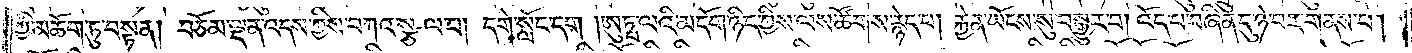ཀྱི་མཆོག་ཏུ་བསྟན། བཅོམ་ལྡན་འདས་ཀྱིས་བཀའ་སྩལ་པ། དགེ་སློང་དག །ཨུཏྤ་ལའི་མདོག་ཉིད་ཀྱིས་ལས་ཚོགས་རྙེད་པ། རྐྱེན་ཡོངས་སུ་བསྒྱུར་བ། འོད་པ་བཞིན་དུ་ཉེ་བར་གནས་པ།
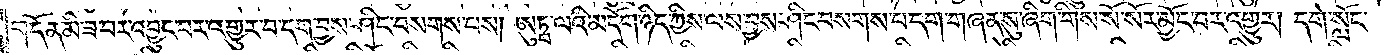གདོན་མི་ཟ་བར་འབྱུང་བར་འགྱུར་པ་དག་བྱས་ཤིང་བསགས་པས། ཨུཏྤ་ལའི་མདོག་ཉིད་ཀྱིས་ལས་བྱས་ཤིང་བསགས་པ་དག་གཞན་སུ་ཞིག་གིས་སོ་སོར་མྱོང་བར་འགྱུར། དགེ་སློང་
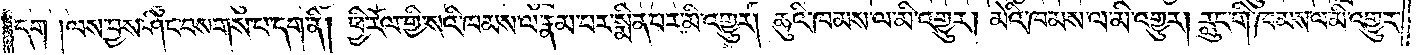དག །ལས་བྱས་ཤིང་བསགས་པ་དག་ནི། ཕྱི་རོལ་གྱི་སའི་ཁམས་ལ་རྣམ་པར་སྨིན་པ་མི་འགྱུར། ཆུའི་ཁམས་ལ་མི་འགྱུར། མེའི་ཁམས་ལ་མི་འགྱུར། རླུང་གི་ཁམས་ལ་མི་འགྱུར་
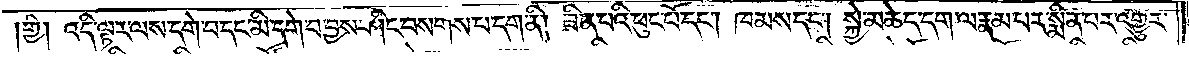གྱི། འདི་ལྟར་ལས་དགེ་བ་དང་མི་དགེ་བ་བྱས་ཤིང་བསགས་པ་དག་ནི། ཟིན་པའི་ཕུང་པོ་དང༌། ཁམས་དང༌། སྐྱེ་མཆེད་དག་ལ་རྣམ་པར་སྨིན་པར་འགྱུར་
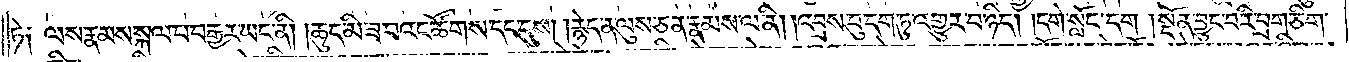ཏེ༑ ལས་རྣམས་སྐལ་པ་བརྒྱར་ཡང་ནི། །ཆུད་མི་ཟ་བའང་ཚོགས་དང་དུས། །རྙེད་ན་ལུས་ཅན་རྣམས་ལ་ནི། །འབྲས་བུ་དག་ཏུ་འགྱུར་བ་ཉིད། དགེ་སློང་དག །སྔོན་བྱུང་བ་རི་བྲག་ཅིག་
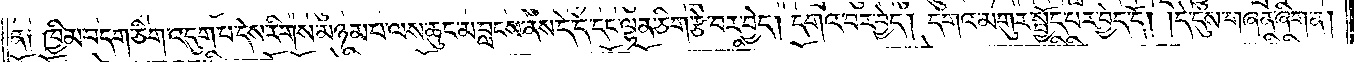ན༑ ཁྱིམ་བདག་ཅིག་འདུག་པ་དེས་རིགས་མཉམ་པ་ལས་ཆུང་མ་བླངས་ནས་དེ་དེ་དང་ལྷན་ཅིག་རྩེ་བར་བྱེད། དགའ་བར་བྱེད། དགའ་མགུར་སྤྱོད་པར་བྱེད་དོ། །དེ་དུས་གཞན་ཞིག་ན།
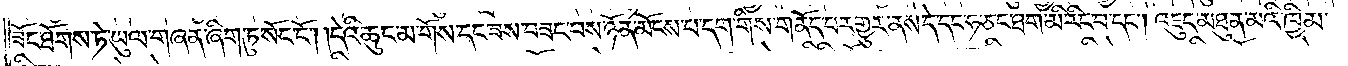ཟོང་ཐོགས་ཏེ་ཡུལ་གཞན་ཞིག་ཏུ་སོང་ངོ༌། །དེའི་ཆུང་མ་གོས་དང་ཟས་བཟང་བས་ཉོན་མོངས་པ་དག་གིས་གནོད་པར་གྱུར་ནས་དེ་དང་ཧ་ཅང་ཐག་མི་རིང་བ་དང༌། འཇུད་མཐུན་མའི་ཁྱིམ་
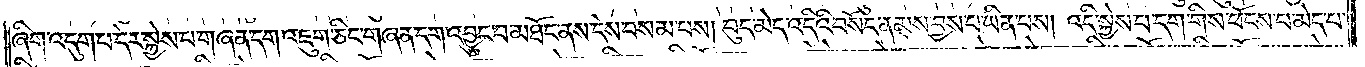ཞིག་འདུག་པ་དེར་སྐྱེས་པ་གཞན་དག་འཇུག་ཅིང་གཞན་དག་འབྱུང་བ་མཐོང་ནས་དེས་བསམ་པས། བུད་མེད་འདིའི་བསོད་ནམས་བྱས་པ་ཡིན་པས། འདི་སྐྱེས་པ་དག་གིས་ཕོངས་པ་མེད་པ་
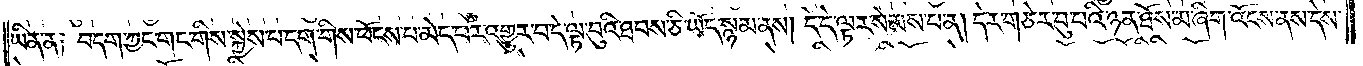ཡིན་ན། བདག་ཀྱང་གང་གིས་སྐྱེས་པ་དག་གིས་ཕོངས་པ་མེད་པར་འགྱུར་བ་དེ་ལྟ་བུའི་ཐབས་ཅི་ཡོད་སྙམ་ནས། དེ་དེ་ལྟར་སེམས་པ་ན། དེར་གཅེར་བུ་པའི་ཉན་ཐོས་མ་ཞིག་འོངས་ནས་དེས་
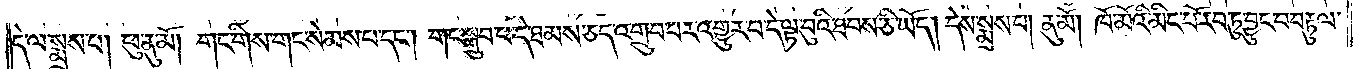དེ་ལ་སྨྲས་པ། ཕུ་ནུ་མོ། གང་གིས་གང་སེམས་པ་དང༌། གང་སྒྲུབ་པ་དེ་ཐམས་ཅད་འགྲུབ་པར་འགྱུར་བ་དེ་ལྟ་བུའི་ཐབས་ཅི་ཡོད། དེས་སྨྲས་པ། ནུ་མོ། ཁོ་མོའི་མིང་པོ་རབ་ཏུ་བྱུང་བ་བརྟུལ་
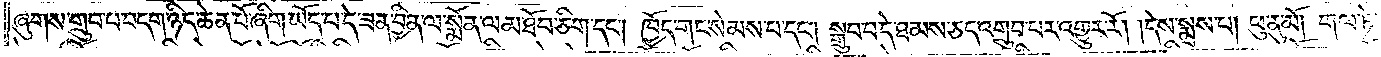ཞུགས་གྲུབ་པ་བདག་ཉིད་ཆེན་པོ་ཞིག་ཡོད་པ་དེ་ཟན་བྱིན་ལ་སྨོན་ལམ་ཐོབ་ཅིག་དང༌། ཁྱོད་གང་སེམས་པ་དང༌། སྒྲུབ་པ་དེ་ཐམས་ཅད་འགྲུབ་པར་འགྱུར་རོ། །དེས་སྨྲས་པ། ཕུ་ནུ་མོ། གལ་ཏེ་
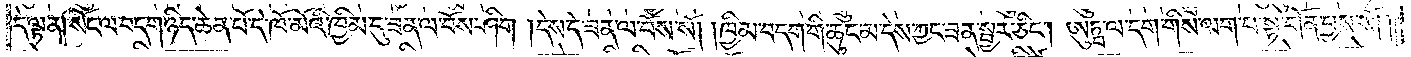དེ་ལྟ་ན། སོང་ལ་བདག་ཉིད་ཆེན་པོ་དེ་ཁོ་མོའི་ཁྱིམ་དུ་ཟན་ལ་བོས་ཤིག །དེས་དེ་ཟན་ལ་བོས་སོ། །ཁྱིམ་བདག་གི་ཆུང་མ་དེས་ཀྱང་ཟན་སྦྱར་ཅིང༌། ཨུཏྤ་ལ་དག་གིས་ལག་པ་སྟ་གོན་བྱས་སོ། །
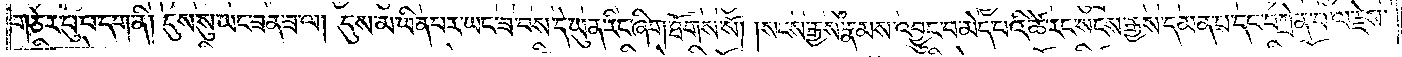གཅེར་བུ་པ་དག་ནི། དུས་སུ་ཡང་ཟན་ཟ་ལ། དུས་མ་ཡིན་པར་ཡང་ཟ་བས་དེ་ཡུན་རིང་ཞིག་ཐོགས་སོ། །སངས་རྒྱས་རྣམས་འབྱུང་བ་མེད་པའི་ཚེ་རང་སངས་རྒྱས་དམན་པ་དང་བཀྲེན་པ་ལ་རྗེས་
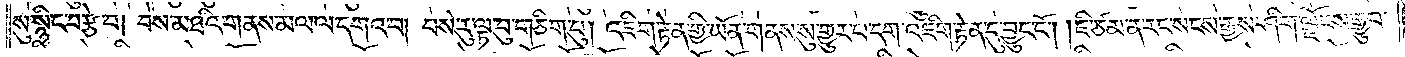སུ་སྙིང་བརྩེ་བ། བས་མཐའི་གནས་མལ་ལ་དགའ་བ། བསེ་རུ་ལྟ་བུ་གཅིག་པུ། འཇིག་རྟེན་གྱི་ཡོན་གནས་སུ་གྱུར་པ་དག་འཇིག་རྟེན་དུ་བྱུང་ངོ༌། །ཇི་ཙམ་ན་རང་སངས་རྒྱས་ཤིག་ལྗོངས་རྒྱུ་བ་
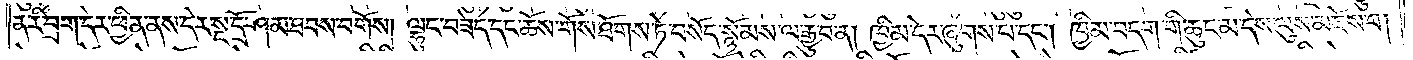ན་རི་བྲག་དེར་ཕྱིན་ནས་དེར་སྔ་དྲོ་ཤམ་ཐབས་བགོས། ལྷུང་བཟེད་དང་ཆོས་གོས་ཐོགས་ཏེ་བསོད་སྙོམས་ལ་རྒྱུ་བ་ན། ཁྱིམ་དེར་ཞུགས་པ་དང༌། ཁྱིམ་བདག་གི་ཆུང་མ་དེས་ལུས་མཛེས་པ།
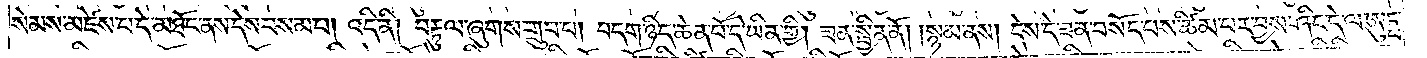སེམས་མཛེས་པ་དེ་མཐོང་ནས་དེས་བསམ་པ། འདི་ནི། བརྟུལ་ཞུགས་གྲུབ་པ། བདག་ཉིད་ཆེན་པོ་དེ་ཡིན་གྱི། ཟན་སྦྱིན་ནོ། །སྙམ་ནས། དེས་དེ་ཟན་བསོད་པས་ཚིམ་པར་བྱས་ཤིང་དེ་ལ་ཨུཏྤ་
